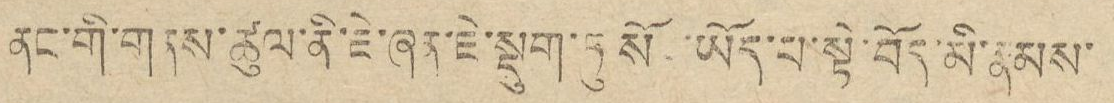ནང་གི་གནས་ཚུལ་ནི་ཇེ་ཞན་ཇེ་སྡུག་ཏུ་སོང་ཡོད་པ་སྟེ་བོད་མི་རྣམས་
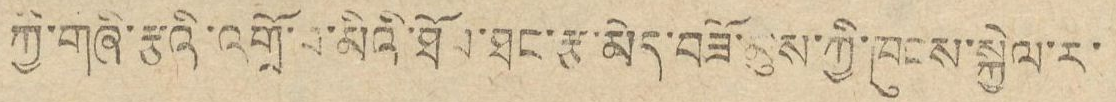ཀྱི་གཞི་རྩའི་འགྲོ་བ་མིའི་ཐོབ་ཐང་རྩ་མེད་བཟོ་མུས་ཀྱི་ཁུངས་སྐྱེལ་ར་
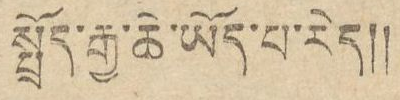སྤྲོད་རྒྱ་ཆེ་ཡོད་པ་རེད།།
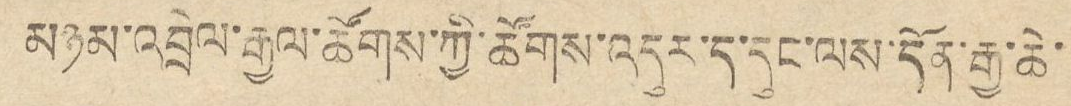མཉམ་འབྲེལ་རྒྱལ་ཚོགས་ཀྱི་ཚོགས་འདུར་ད་དུང་ལས་དོན་རྒྱ་ཆེ་
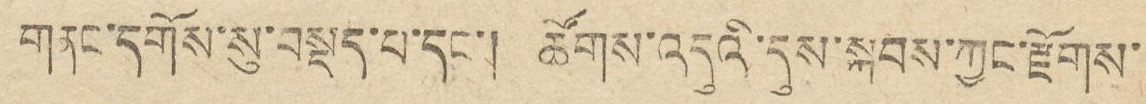གནང་དགོས་སུ་བསྡད་པ་དང་། ཚོགས་འདུའི་དུས་སྐབས་ཀྱང་རྫོགས་
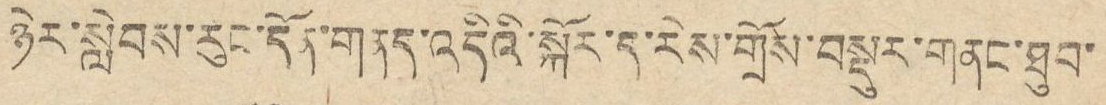ཉེར་སླེབས་རུང་དོན་གནད་འདིའི་སྐོར་ད་རེས་གྲོས་བསྡུར་གནང་ཐུབ་
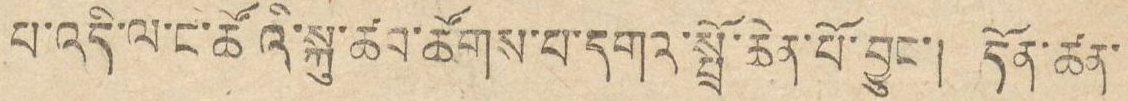པ་འདི་ལ་ང་ཚོའི་སྐུ་ཚབ་ཚོགས་པ་དགའ་སྤྲོ་ཆེན་པོ་བྱུང་། དོན་ཚན་
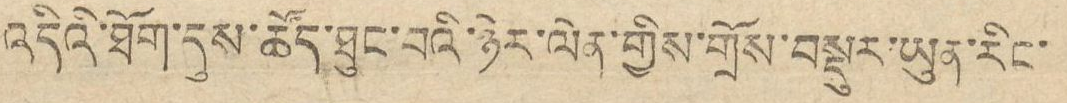འདིའི་ཐོག་དུས་ཚོད་ཐུང་བའི་ཉེར་ལེན་གྱིས་གྲོས་བསྡུར་ཡུན་རིང་
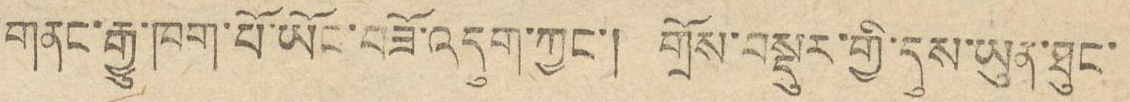གནང་རྒྱུ་ཁག་པོ་ཡོང་བཟོ་འདུག་ཀྱང་། གྲོས་བསྡུར་གྱི་དུས་ཡུན་ཐུང་
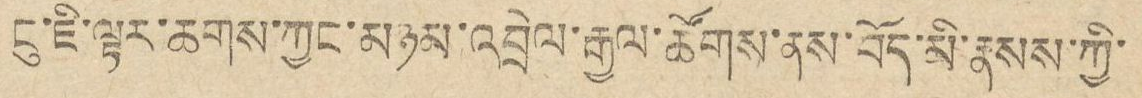ངུ་ཇི་ལྟར་ཆགས་ཀྱང་མཉམ་འབྲེལ་རྒྱལ་ཚོགས་ནས་བོད་མི་རྣམས་ཀྱི་
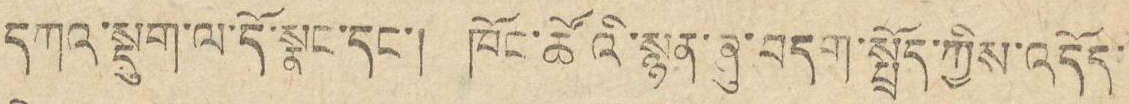དཀའ་སྡུག་ལ་དོ་སྣང་དང་། ཁོང་ཚོའི་སྙན་ཞུ་བདག་སྤྲོད་ཀྱིས་འདོད་
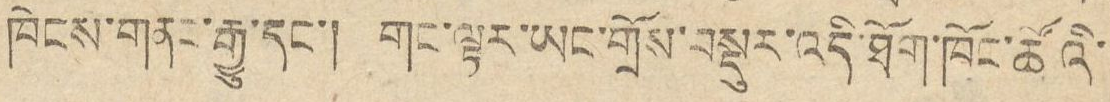ཁེངས་གནང་རྒྱུ་དང་། གང་ལྟར་ཡང་གྲོས་བསྡུར་འདི་ཐོག་ཁོང་ཚོའི་
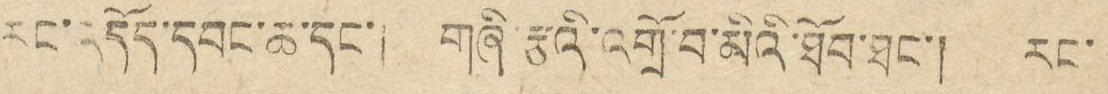རང་འདོད་དབང་ཆ་དང་། གཞི་རྩའི་འགྲོ་བ་མིའི་ཐོབ་ཐང་། རང་
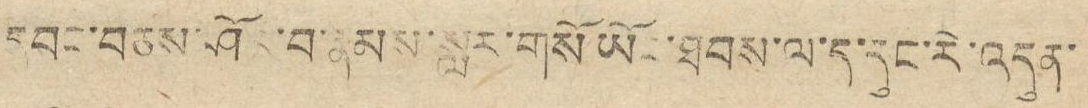དབང་བཅས་ཤོར་བ་རྣམས་སླར་གསོ ཡོང་ཐབས་ལ་ད་དུང་རེ་འདུན་
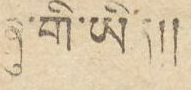ཞུ་གི་ཡིན།།
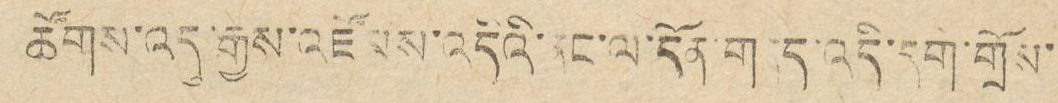ཚོགས་འདུ་རྒྱས་འཛོམས་འདིའི་ནང་ལ་དོན་གནད་འདི་དག་གྲོས་
